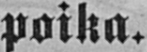poika.
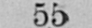55
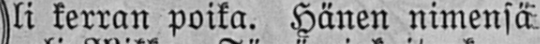Oli kerran poika. Hänen nimensä
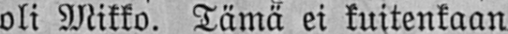oli Mikko. Tämä ei kuitenkaan
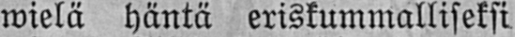wielä häntä eriskummalliseksi
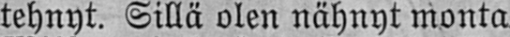tehnyt. Sillä olen nähnyt monta
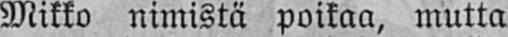Mikko nimistä poikaa, mutta
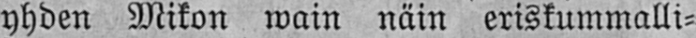yhden Mikon wain näin eriskummalli-
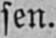sen.
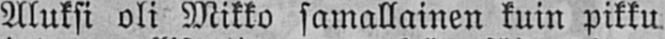Aluksi oli Mikko samallainen kuin pikku,
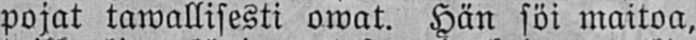pojat tawallisesti owat. Hän söi maitoa,
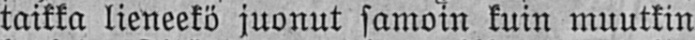taikka lieneekö juonut samoin kuin muutkin
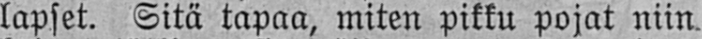lapset. Sitä tapaa, miten pikku pojat niin
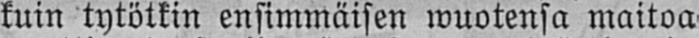kuin tytötkin ensimmäisen wuotensa maitoa
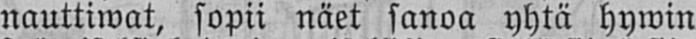nauttiwat, sopii näet sanoa yhtä hywin
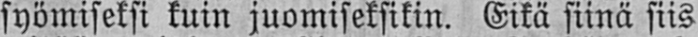syömiseksi kuin juomiseksikin. Eikä siinä siis
